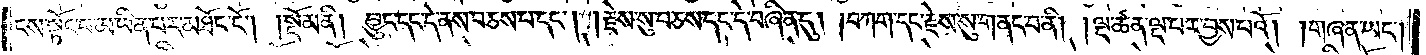ངས་སྟོང་པ་མ་ཡིན་པར་མཐོང་ངོ༌། །སྡོམ་ནི། བྱུང་དང་དེ་ནས་བཅས་པ་དང༌། །རྗེས་སུ་བཅས་དང་དེ་བཞིན་དུ། །བཀག་དང་རྗེས་སུ་གནང་བ་ནི། །ལྔ་ཚན་ལྔ་པར་བྱས་པའོ། །གཞན་ཡང༌།
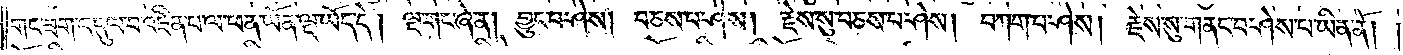གང་ཟག་འདུལ་བ་འཛིན་པ་ལ་ཕན་ཡོན་ལྔ་ཡོད་དེ། ལྔ་གང་ཞེ་ན། བྱུང་བ་ཤེས། བཅས་པ་ཤེས། རྗེས་སུ་བཅས་པ་ཤེས། བཀག་པ་ཤེས། རྗེས་སུ་གནང་བ་ཤེས་པ་ཡིན་ནོ། །
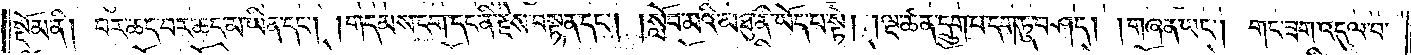སྡོམ་ནི། བར་ཆད་བར་ཆད་མ་ཡིན་དང༌། །གདམས་ངག་དང་ནི་རྗེས་བསྟན་དང༌། །སློབ་མའི་མཐུ་ནི་ཡོད་པ་སྟེ། ལྔ་ཚན་དྲུག་པ་དག་ཏུ་བཤད། །གཞན་ཡང༌། གང་ཟག་འདུལ་བ་
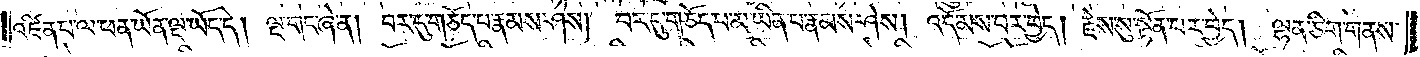འཛིན་པ་ལ་ཕན་ཡོན་ལྔ་ཡོད་དེ། ལྔ་གང་ཞེ་ན། བར་དུ་གཅོད་པ་རྣམས་ཤེས། བར་དུ་གཅོད་པ་མ་ཡིན་པ་རྣམས་ཤེས། འདོམས་པར་བྱེད། རྗེས་སུ་སྟོན་པར་བྱེད། ལྷན་ཅིག་གནས་
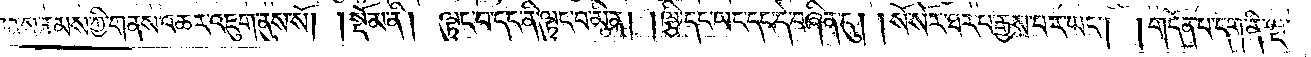པ་དང་ཉེ་གནས་རྣམས་ཀྱི་གནས་འཆར་འཇུག་ནུས་སོ། །སྡོམ་ནི། ལྟུང་བ་དང་ནི་ལྟུང་བ་མིན། །ལྕི་དང་ཡང་དང་དེ་བཞིན་དུ། །སོ་སོར་ཐར་པ་རྒྱས་པར་ཡང༌། །གདོན་པ་དག་ནི་ལྔ་
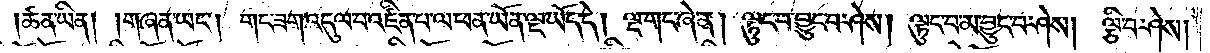ཚན་ཡིན། །གཞན་ཡང༌། གང་ཟག་འདུལ་བ་འཛིན་པ་ལ་ཕན་ཡོན་ལྔ་ཡོད་དེ། ལྔ་གང་ཞེ་ན། ལྟུང་བ་བྱུང་བ་ཤེས། ལྟུང་བ་མ་བྱུང་བ་ཤེས། ལྕི་བ་ཤེས།
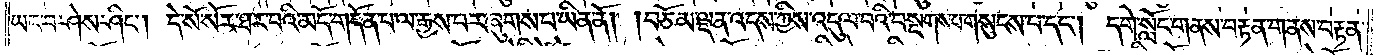ཡང་བ་ཤེས་ཤིང༌། དེ་སོ་སོར་ཐར་པའི་མདོ་གདོན་པ་ལ་རྒྱས་པར་ཞུགས་པ་ཡིན་ནོ། །བཅོམ་ལྡན་འདས་ཀྱིས་འདུལ་བའི་བསྔགས་པ་གསུངས་པ་དང༌། དགེ་སློང་གནས་བརྟན་གནས་བརྟན་
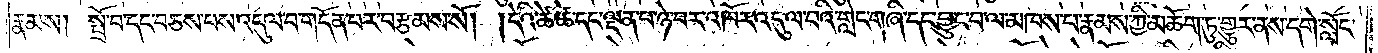རྣམས། སྤྲོ་བ་དང་བཅས་པས་འདུལ་བ་གདོན་པར་བརྩམས་སོ། །དེའི་ཚེ་ཚེ་དང་ལྡན་པ་ཉེ་བར་འཁོར་འདུལ་བའི་གླེང་གཞི་དང་བྱུང་བ་ལ་མཁས་པ་རྣམས་ཀྱི་མཆོག་ཏུ་གྱུར་ནས་དགེ་སློང་
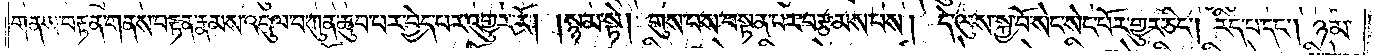གནས་བརྟན་གནས་བརྟན་རྣམས་འདུལ་བ་ཀུན་ཆུབ་པར་བྱེད་པར་འགྱུར་རོ། །སྙམ་སྟེ། གུས་པས་བསྟན་པར་བརྩམས་པས། དེ་ལུས་སྐྱ་བོ་སེང་སེང་པོར་གྱུར་ཅིང༌། རིད་པ་དང༌། ཉམ་
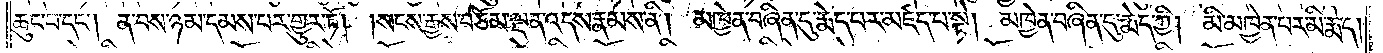ཆུང་བ་དང༌། ན་བས་ཉམ་དམས་པར་གྱུར་ཏོ། །སངས་རྒྱས་བཅོམ་ལྡན་འདས་རྣམས་ནི། མཁྱེན་བཞིན་དུ་རྨེད་པར་མཛད་པ་སྟེ། མཁྱེན་བཞིན་དུ་རྨེད་ཀྱི། མི་མཁྱེན་པར་མི་རྨེད།
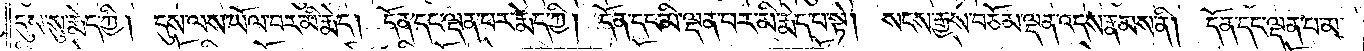དུས་སུ་རྨེད་ཀྱི། དུས་ལས་ཡོལ་བར་མི་རྨེད། དོན་དང་ལྡན་པར་རྨེད་ཀྱི། དོན་དང་མི་ལྡན་པར་མི་རྨེད་པ་སྟེ། སངས་རྒྱས་བཅོམ་ལྡན་འདས་རྣམས་ནི། དོན་དང་ལྡན་པ་མ་
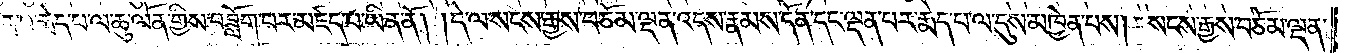ཡིན་པ་རྨེད་པ་ལ་ཆུ་ལོན་གྱིས་བཟློག་པར་མཛད་པ་ཡིན་ནོ། །དེ་ལ་སངས་རྒྱས་བཅོམ་ལྡན་འདས་རྣམས་དོན་དང་ལྡན་པར་རྨེད་པ་ལ་དུས་མཁྱེན་པས། སངས་རྒྱས་བཅོམ་ལྡན་
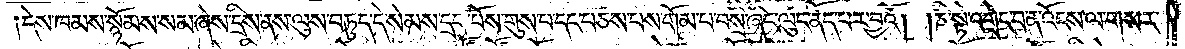དེས་ཁམས་སྙོམས་སམ་ཞེས་དྲིས་ནས་ལུས་བཏུད་དེ་སེམས་དྲང་པོས་གུས་པ་དང་བཅས་པས་གོམ་པ་བསྲི་ཞིང་ལུང་ནོད་པར་བྱའོ། །ཅི་སྟེ་འགྲེང་བ་ན་འོངས་ལ་གསར་
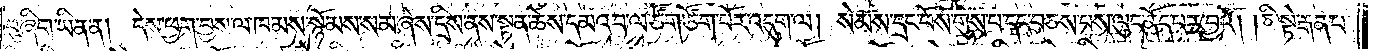བུ་ཞིག་ཡིན་ན། དེས་ཕྱག་བྱས་ལ་ཁམས་སྙོམས་སམ་ཞེས་དྲིས་ནས་སྟན་ཆེས་དམའ་བ་ལ་ཙོག་ཙོག་པོར་འདུག་ལ། སེམས་དྲང་པོས་གུས་པ་དང་བཅས་པས་ལུང་ནོད་པར་བྱའོ། །ཅི་སྟེ་རྒན་པ་
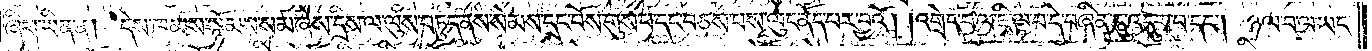ཞིག་ཡིན་ན། དེས་ཁམས་སྙོམས་སམ་ཞེས་དྲིས་ལ་ལུས་བཏུད་ནས་སེམས་དྲང་པོས་གུས་པ་དང་བཅས་པས་ལུང་ནོད་པར་བྱའོ། །འགྲེང་བ་ལ་ཇི་ལྟ་བ་དེ་བཞིན་དུ་འདུག་པ་དང༌། ཉལ་བ་ལ་ཡང་
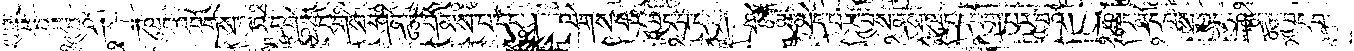སྦྱར་བར་བྱའོ། །ལུང་འབོགས་པའི་དགེ་སློང་གིས་ཤིན་ཏུ་གོམས་པ་དང༌། ལེགས་པར་བྱང་བ་དང༌། ཐེ་ཚོམ་མེད་པར་བྱས་ནས་ལུང་དབོག་པར་བྱའོ། །ལུང་ནོད་པས་ཀྱང་ཤིན་ཏུ་བྱང་བ་
